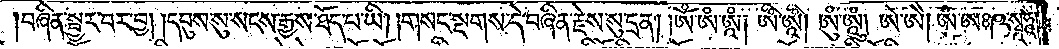བཞིན་སྦྱར་བར་བྱ། །དབུས་སུ་སངས་རྒྱས་ཐོད་པ་ཡི། །གསང་སྔགས་དེ་བཞིན་རྗེས་སུ་དྲན། །ཨོཾ་ཨཾ་ཨཱཾ། ཨིཾ་ཨཱིཾ། ཨུཾ་ཨཱུཾ། ཨེ་ཨཻ། ཨཾ་ཨཿ ཥ་སྭཱ་ཧཱ་
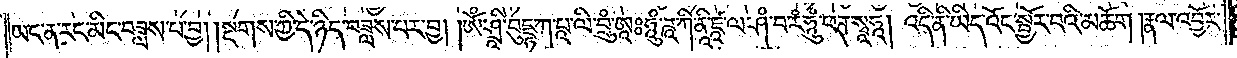ཡང་ན་རང་མིང་བཟླས་པ་བྱ། །སྔགས་ཀྱི་དེ་ཉིད་བཟླས་པར་བྱ། །ཨོཾ་ཤྲཱི་བུདྡྷ་ཀ་པཱ་ལི་བྲུཾ་ཨཱཿ ཧཱུཾ་ཌཱ་ཀི་ནཱི་ཛཱ་ལ་ཤཾ་བ་རཾ་ཧཱུཾ་ཕཊ་སྭཱཧཱ། འདི་ནི་ཡིད་འོང་སྦྱོར་བའི་མཆོག །རྣལ་འབྱོར་
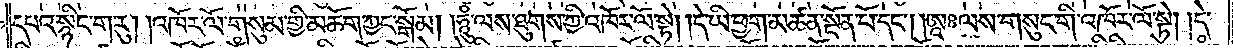དཔའ་སྙིང་ག་རུ། །འཁོར་ལོ་གསུམ་གྱི་མཆོག་ཀྱང་སྒོམ། །ཧཱུཾ་ལས་ཐུགས་ཀྱི་འཁོར་ལོ་སྟེ། །དེ་ཡི་ཕྱག་མཚན་སྔོན་པོ་དང༌། །ཨཱཿ ལས་གསུང་གི་འཁོར་ལོ་སྟེ། །དེ་
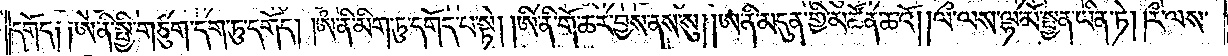དགོད༑ ༑ཨེ་ནི་སྤྱི་གཙུག་དག་ཏུ་དགོད། །ཨཾ་ནི་མིག་ཏུ་དགོད་པ་སྟེ། །ཨི་ནི་གོ་ཆར་བྱས་ནས་སུ། །ཨ་ནི་མདུན་གྱི་མཚོན་ཆའོ། །ལྀ་ལས་ལྷ་མོ་སྤྱན་ཡིན་ཏེ། །རྀ་ལས་
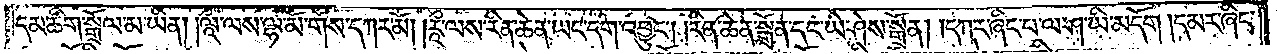དམ་ཚིག་སྒྲོལ་མ་ཡིན། །ལཱྀ་ལས་ལྷ་མོ་གོས་དཀར་མོ། །རཱྀ་ལས་རིན་ཆེན་ཡང་དག་འབྱུང༌། །རིན་ཆེན་སྒྲོན་དང་ཡེ་ཤེས་སྒྲོན། །དཀར་ཞིང་པ་ལ་ཤ་ཡི་མདོག །དམར་ཞིང་
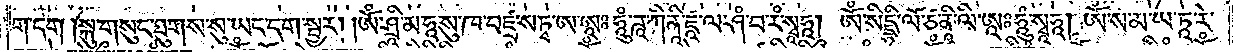ག་དག །སྐུ་གསུང་ཐུགས་སུ་ཡང་དག་སྦྱར། །ཨོཾ་ཤྲཱི་མ་ཧཱ་སུ་ཁ་བཛྲ་ས་ཏྭ་ཨ་ཨཱཿ ཧཱུཾ་ཌཱ་ཀི་ནཱི་ཛཱ་ལ་ཤཾ་བ་རཾ་སྭཱཧཱ། ཨོཾ་སིདྡྷི་ལོ་ཙ་ནཱི་ལི་ཨཱཿ ཧཱུཾ་སྭཱཧཱ། ཨོཾ་ས་མ་ཡ་ཏཱ་རེ་
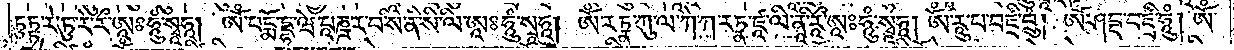ཏུཏྟ་རེ་ཏུ་རེ་རྀ་ཨཱཿ ཧཱུཾ་སྭཱཧཱ། ཨོཾ་པདྨོ་དྡྷ་ཝེ་པཱཎྜ་ར་བ་སི་ནི་སི་ལི་ཨཱཿ ཧཱུཾ་སྭཱཧཱ། ཨོཾ་རཏྣ་ཀུ་ལ་ཀེ་ཀ་རཏྣ་ཛཱ་ལི་ནཱི་རཱྀ་ཨཱཿ ཧཱུཾ་སྭཱཧཱ། ཨོཾ་རཱུ་པ་བཛྲི་བྲུཾ། ཨོཾ་ཤབྡ་བཛྲི་ཧཱུཾ། ཨོཾ་
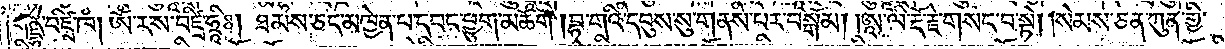གནྡྷ་བཛྲི་ཁཾ། ཨོཾ་ར་ས་བཛྲི་ཧྲཱིཿ། ཐམས་ཅད་མཁྱེན་པ་དབང་ཕྱུག་མཆོག །བྷ་གའི་དབུས་སུ་གནས་པར་བསྒོམ། །ཨཱ་ལི་རྡོ་རྗེ་གསང་བ་སྟེ། །སེམས་ཅན་ཀུན་གྱི་
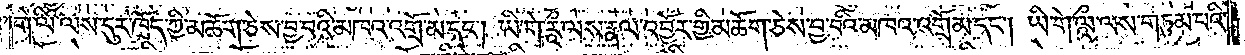གེ་ལི་ལས་དུར་ཁྲོད་ཀྱི་མཆོག་ཅེས་བྱ་བའི་མཁའ་འགྲོ་མ་དང༌། ཡི་གེ་རཱྀ་ལས་རྣལ་འབྱོར་གྱི་མཆོག་ཅེས་བྱ་བའི་མཁའ་འགྲོ་མ་དང༌། ཡི་གེ་ལཱྀ་ལས་གཏུམ་པའི་
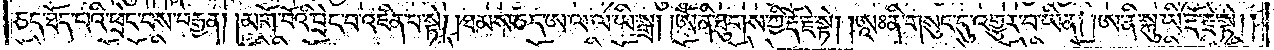ཅད་ཐོད་པའི་ཕྲེང་བས་བརྒྱན། །མགོ་བོའི་ཕྲེང་བ་འཛིན་པ་སྟེ། །ཐམས་ཅད་ཨ་ལ་ལ་ཡི་སྒྲ། །ཨོཾ་ནི་ཐུགས་ཀྱི་རྡོ་རྗེ་སྟེ། །ཨཱཿ ནི་གསུང་དུ་འགྱུར་བ་ཡིན། །ཨ་ནི་སྐུ་ཡི་རྡོ་རྗེ་སྟེ། །
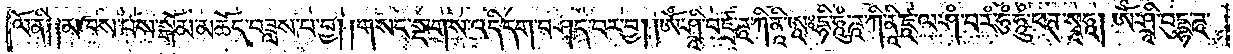ལོ་ནི༑ ༑མཁས་པས་སྒོམ་མཆོད་བཟླས་པ་བྱ། །གསང་སྔགས་འདི་དག་བཤད་བར་བྱ། །ཨོཾ་ཤྲཱི་བཛྲ་ཌཱ་ཀི་ནཱི་ཨཱཿ དྷི་ཧཱུཾ་ཌཱ་ཀི་ནཱི་ཛཱ་ལ་ཤཾ་བ་རཾ་ཧུཾ་ཧཱུཾ་ཕཊ་སྭཱཧཱ། ཨོཾ་ཤྲཱི་བུདྡྷ་ཌཱ་
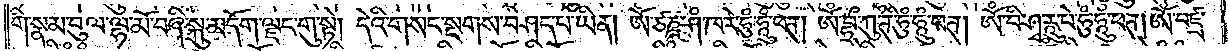གི་སྣམ་བུ་ལ་ལྷ་མོ་བཞི་སྐུ་མདོག་ལྗང་གུ་སྟེ། དེའི་གསང་སྔགས་བཤད་པ་ཡིན། །ཨོ་ཙཎྜ་ཤཾ་ཁ་རེ་ཧུཾ་ཧཱུཾ་ཕཊ། ཨོཾ་བྷྲྀ་ཀུ་ཊ་ཧུཾ་ཧཱུཾ་ཕཊ། ཨོཾ་བི་ཤྭ་རཱུ་པེ་ཧུཾ་ཧཱུཾ་ཕཊ། ཨོཾ་བཛྲ་
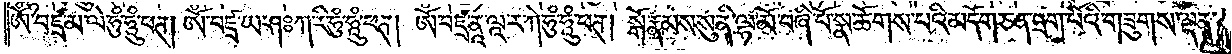ཨོཾ་བཛྲ་མ་ལེ་ཧུཾ་ཧཱུཾ་ཕཊ། ཨོཾ་བཛྲ་ཡ་ཤཿ ཀ་རི་ཧུཾ་ཧཱུཾ་ཕཊ། ཨོཾ་བཛྲ་ནཱ་ལཱ་ར་ཀེ་ཧུཾ་ཧཱུཾ་ཕཊ། སྒོ་རྣམས་སུ་ནི་ལྷ་མོ་བཞི་པོ་སྣ་ཚོགས་པའི་མདོག་ཅན་དྲག་པོའི་གཟུགས་ལྡན་
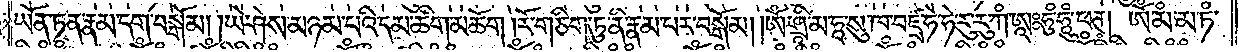ཡོན་ཏན་རྣམ་དག་བསྒོམ། །ཡེ་ཤེས་མཉམ་པའི་དམ་ཚིག་མཆོག །རོ་གཅིག་ཏུ་ནི་རྣམ་པར་བསྒོམ། །ཨོཾ་ཤྲཱི་མ་ཧཱ་སུ་ཁ་བཛྲ་ཧེ་ཧེ་རུ་རུ་ཀཾ་ཨཱཿ ཧུཾ་ཧཱུཾ་ཕཊ། ཨོཾ་མཾ་མ་ཏཾ་
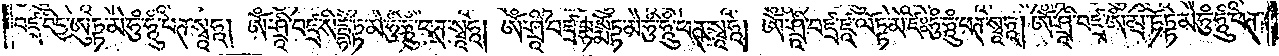བཛྲ་བིདྱ་ཨུཏྟ་མེ་ཧུཾ་ཧཱུཾ་ཕཊ་སྭཱ་ཧཱ། ཨོཾ་ཤྲཱི་བཛྲ་སིདྡྷེ་ཏྟ་མེ་ཧུཾ་ཧཱུཾ་ཕཊ་སྭཱཧཱ། ཨོཾ་ཤྲཱི་བཛྲ་བྷསྨོཏྟ་མེ་ཧུཾ་ཧཱུཾ་ཕཊ་སྭཱཧཱ། ཨོཾ་ཤྲཱི་བཛྲ་ཛཱ་ལོཏྟ་མེ་ཛེཿ ཧུཾ་ཧཱུཾ་ཕཊ་སྭཱཧཱ། ཨོཾ་ཤྲཱི་བཛྲ་ཨཾ་མྲྀ་ཏོཏྟ་མེ་ཧུཾ་ཧཱུཾ་ཕཊ་
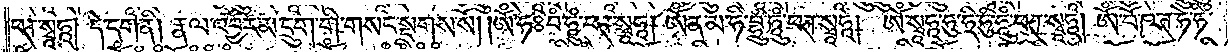ཕཊ་སྭཱཧཱ། དེ་དག་ནི། རྣལ་འབྱོར་མ་དྲུག་གི་གསང་སྔགས་སོ། །ཨོཾ་ཧཿབཾ་ཧཱུཾ་ཕཊ་སྭཱཧཱ། ཨོཾ་ན་མ་ཧི་བྷྲུཾ་ཧཱུཾ་ཕཊ་སྭཱཧཱ། ཨོཾ་སྭཱཧཱ་ཧུ་ཧྲི་ཧུཾ་ཧཱུཾ་ཕཊ་སྭཱཧཱ། ཨོཾ་བཽ་ཥཊ་ཧེ་ཧིཾ་
